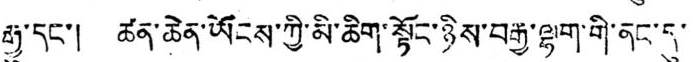རྒྱུ་དང་། ཚན་ཆེན་ཡོངས་ཀྱི་མི་ཆིག་སྟོང་ཉིས་བརྒྱ་ལྷག་གི་ནང་དུ་
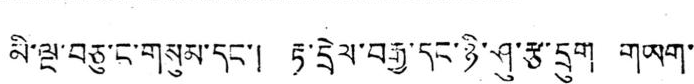མི་ལྔ་བཅུ་ང་གསུམ་དང་། རྟ་དྲེལ་བརྒྱ་དང་ཉི་ཤུ་རྩ་དྲུག གཡག་
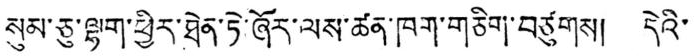སུམ་ཅུ་ལྷག་ཕྱིར་ཐེན་ཏེ་ཞོར་ལས་ཚན་ཁག་གཅིག་བཙུགས། དེའི་
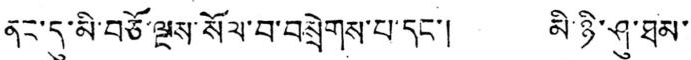ནང་དུ་མི་བཅོ་ལྔས་སོལ་བ་བསྲེགས་པ་དང་། མི་ཉི་ཤུ་ཐམ་
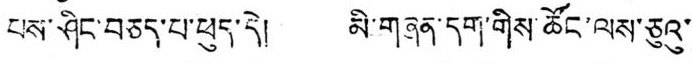པས་ཤིང་བཅད་པ་ཕུད་དེ། མི་གཞན་དག་གིས་ཚོང་ལས་ཅུའུ་
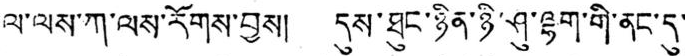ལ་ལས་ཀ་ལས་རོགས་བྱས། དུས་ཐུང་ཉིན་ཉི་ཤུ་ལྷག་གི་ནང་དུ་
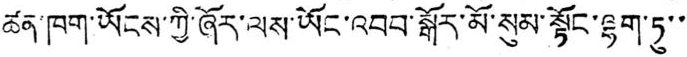ཚན་ཁག་ཡོངས་ཀྱི་ཞོར་ལས་ཡོང་འབབ་སྒོར་མོ་སུམ་སྟོང་ལྷག་ཏུ་་
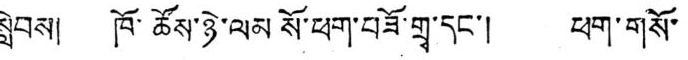སླེབས། ཁོ་ཚོས་ཉེ་ལམ སོ་ཕག་བཟོ་གྲྭ་དང་། ཕག་གསོ་
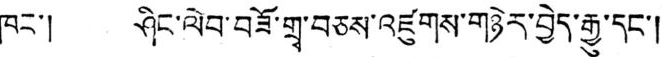ཁང་། ཤིང་ལེབ་བཟོ་གྲྭ་བཅས་འཛུགས་གཉེར་བྱེད་རྒྱུ་དང་།
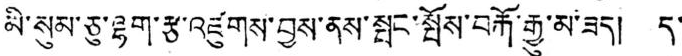མི་སུམ་ཅུ་ལྷག་རྩ་འཛུགས་བྱས་ནས་སྤང་སྤོས་བརྐོ་རྒྱུ་མ་ཟད། ད་
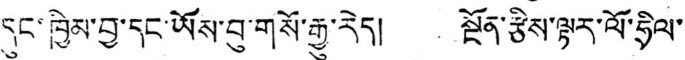དུང་ཁྱིམ་བྱ་དང་ཡོས་བུ་གསོ་རྒྱུ་རེད། སྔོན་རྩིས་ལྟར་ལོ་ཧྲིལ་
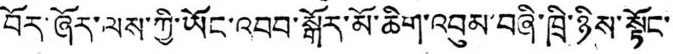བོར་ཞོར་ལས་ཀྱི་ཡོང་འབབ་སྒོར་མོ་ཆིག་འབུམ་བཞི་ཁྲི་ཉིས་སྟོང་་
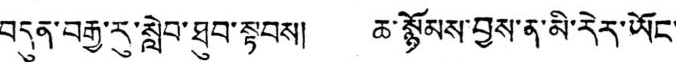བདུན་བརྒྱ་རུ་སླེབ་ཐུབ་སྟབས། ཆ་སྙོམས་བྱས་ན་མི་རེར་ཡོང་
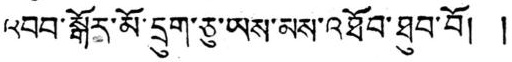འབབ་སྒོར་མོ་དྲུག་ཅུ་ཡས་མས་འཐོབ་ཐུབ་བོ། །
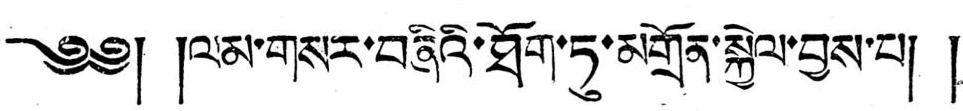༄༅། །ལམ་གསར་བཞིའི་ཐོག་ཏུ་མགྲོན་སྐྱེལ་བྱས་པ། །
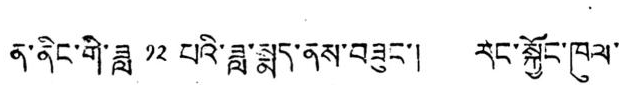ན་ནིང་གི་ཟླ ༡༢ པའི་ཟླ་སྨད་ནས་བཟུང་། རང་སྐྱོང་ཁུལ་
